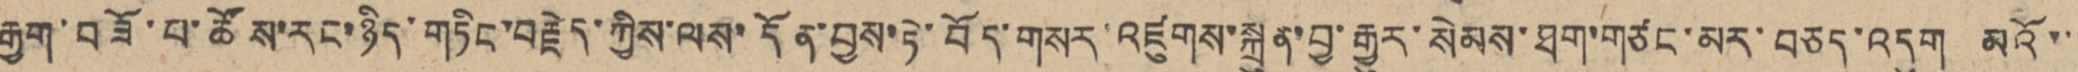རྒྱག་བཟོ་པ་ཚོས་རང་ཉིད་གཏིང་བརྗེད་ཀྱིས་ལས་དོན་བྱས་ཏེ་བོད་གསར་འཛུགས་སྐྲུན་བྱ་རྒྱུར་སེམས་ཐག་གཙང་མར་བཅད་འདུག མའོ་་་
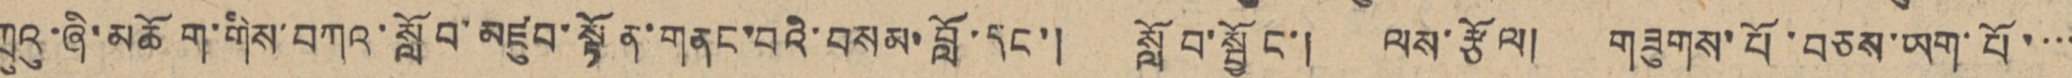ཀྲུའུ་ཞི་མཆོག་གིས་བཀའ་སློབ་མཛུབ་སྟོན་གནང་བའི་བསམ་བློ་དང་། སློབ་སྦྱོང་། ལས་རྩོལ། གཟུགས་པོ་བཅས་ཡག་པོ་་་་
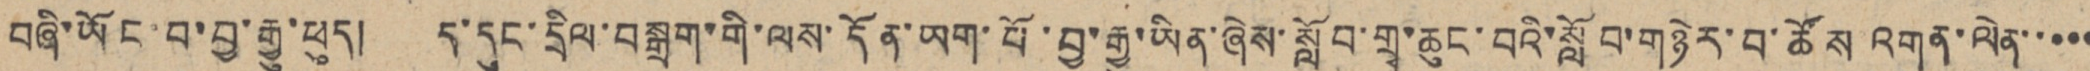བཞི་ཡོང་བ་བྱ་རྒྱུ་ཕུད། ད་དུང་དྲིལ་བསྒྲག་གི་ལས་དོན་ཡག་པོ་བྱ་རྒྱུ་ཡིན་ཞེས་སློབ་གྲྭ་ཆུང་བའི་སློབ་གཉེར་བ་ཚོས འགན་ལེན་་་་་
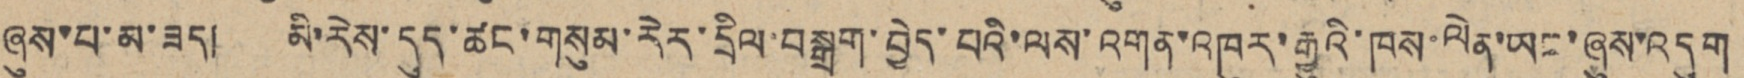ཞུས་པ་མ་ཟད། མི་རེས་དུད་ཚང་གསུམ་རེར་དྲིལ་བསྒྲག་བྱེད་པའི་ལས་འགན་འཁུར་རྒྱུའི་ཁས་ལེན་ཡང་ཞུས་འདུག
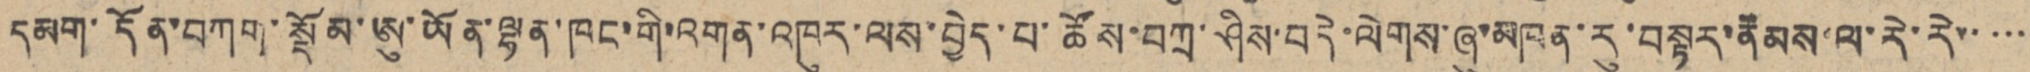དམག་དོན་བཀག་སྡོམ་ཨུ་ཡོན་ལྷན་ཁང་གི་འགན་འཁུར་ལས་བྱེད་པ་ཚོས་བཀྲ་ཤིས་བདེ་ལེགས་ཞུ་མཁན་རུ་བསྟར་རྣམས་ལ་རེ་རེ་་་་་
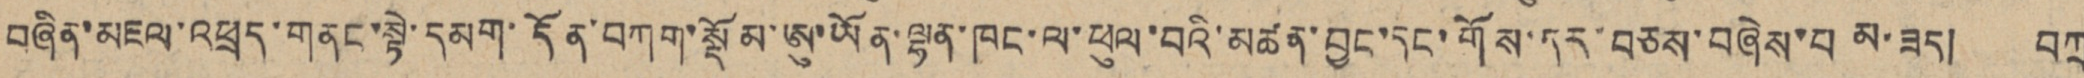བཞིན་མཇལ་འཕྲད་གནང་སྟེ་དམག་དོན་བཀག་སྡོམ་ཨུ་ཡོན་ལྷན་ཁང་ལ་ཕུལ་བའི་མཚན་བྱང་དང་གོས་དར་བཅས་བཞེས་པ མ་ཟད། བཀྲ
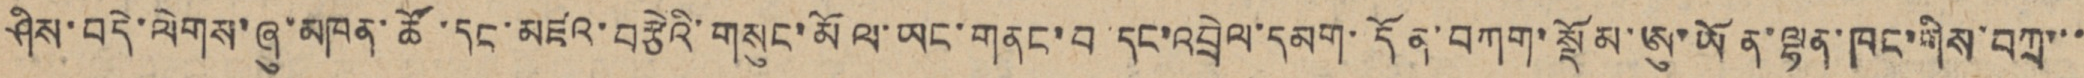ཤིས་བདེ་ལེགས་ཞུ་མཁན་ཚོ་དང་མཛའ་བརྩེའི་གསུང་མོལ་ཡང་གནང་བ་དང་འབྲེལ་དམག་དོན་བཀག་སྡོམ་ཨུ་ཡོན་ལྷན་ཁང་གིས་བཀྲ་་་
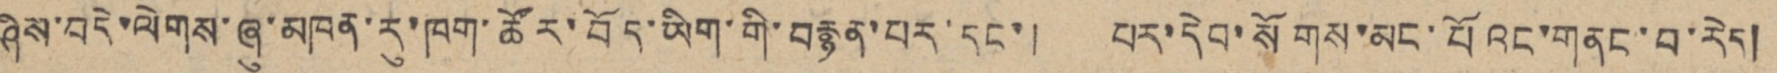ཤིས་བདེ་ལེགས་ཞུ་མཁན་རུ་ཁག་ཚོར་བོད་ཡིག་གི་བརྙན་པར་དང་། པར་དེབ་སོགས་མང་པོའང་གནང་བ་རེད།
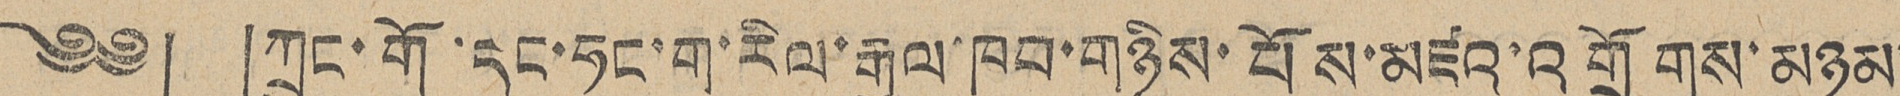༄༅། །ཀྲུང་གོ་དང་ཧང་ག་རིལ་རྒྱལ་ཁབ་གཉིས་པོས་མཛའ་འགྲོགས་མཉམ་
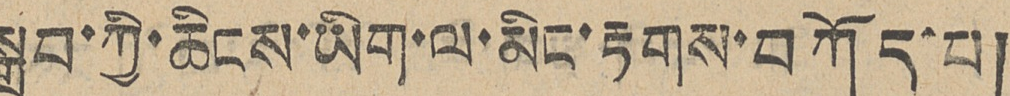སྒྲུབ་ཀྱི་ཆིངས་ཡིག་ལ་མིང་རྟགས་པ་བཀོད་པ།
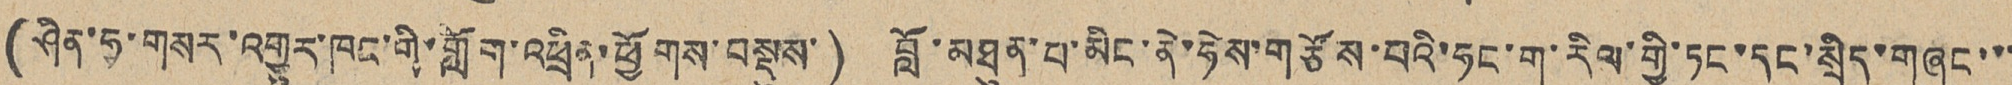(ཤིན་ཧྭ་གསར་འགྱུར་ཁང་གི་གློག་འཕྲིན་ཕྱོགས་བསྡུས་) བློ་མཐུན་པ་མིང་ནེ་ཧེས་གཙོས་པའི་ཧང་ག་རིལ་གྱི་ཏང་དང་སྲིད་གཞུང་་་
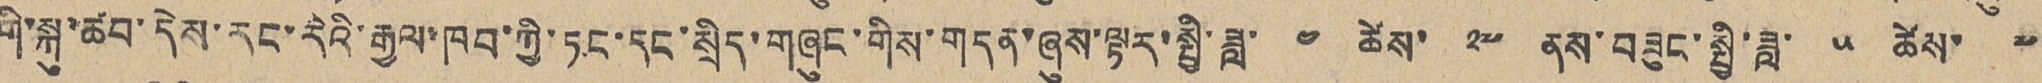གི་སྐུ་ཚབ་དེས་རང་རེའི་རྒྱལ་ཁབ་ཀྱི་ཏང་དང་སྲིད་གཞུང་གིས་གདན་ཞུས་ལྟར་སྤྱི་ཟླ་ ༤ ཚེས་ ༢༧ ནས་བཟུང་སྤྱི་ཟླ་ ༥ ཚེས་ ༧
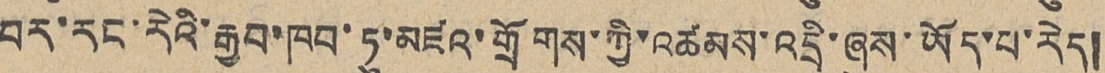པར་རང་རེའི་རྒྱབ་ཁབ་ཏུ་མཛའ་གྲོགས་ཀྱི་འཚམས་འདྲི་ཞུས་ཡོད་པ་རེད།
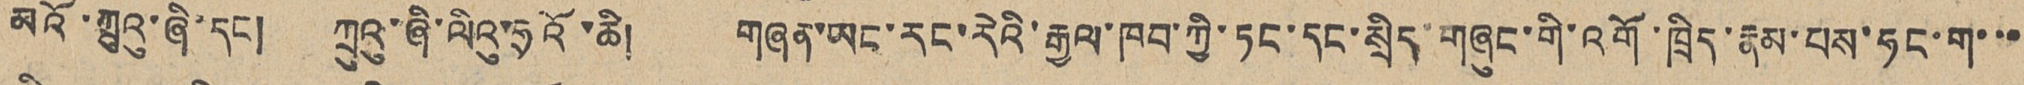མའོ་ཀྲུའུ་ཞི་དང། ཀྲུའུ་ཞི་ལིའུ་ཧྲའོ་ཆི། གཞན་ཡང་རང་རེའི་རྒྱལ་ཁབ་ཀྱི་ཏང་དང་སྲིད་གཞུང་གི་འགོ་ཁྲིད་རྣམ་པས་ཧང་ག་་་
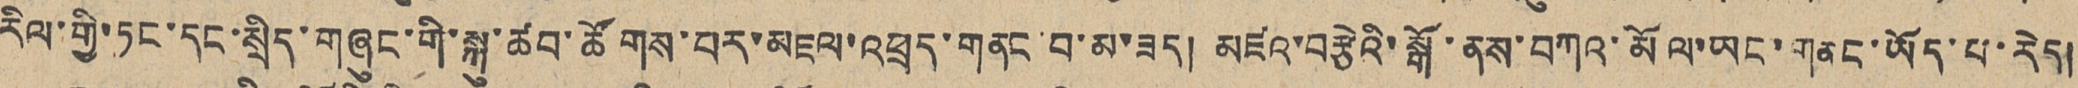རིལ་གྱི་ཏང་དང་སྲིད་གཞུང་གི་སྐུ་ཚབ་ཚོགས་པར་མཇལ་འཕྲད་གནང་བ་མ་ཟད། མཛའ་བརྩེའི་སྒོ་ནས་བཀའ་མོལ་ཡང་གནང་ཡོད་པ་རེད།
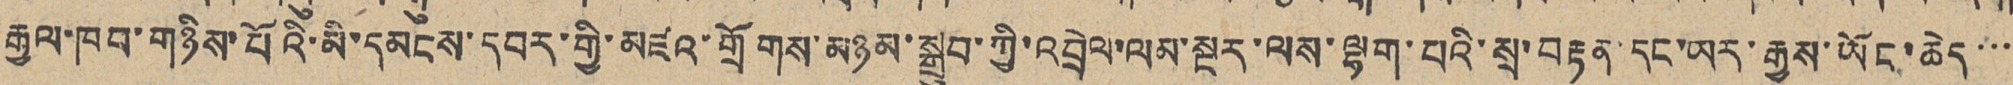རྒྱལ་ཁབ་གཉིས་པོའི་མི་དམངས་དབར་གྱི་མཛའ་གྲོགས་མཉམ་སྒྲུབ་ཀྱི་འབྲེལ་ལམ་སྔར་ལས་ལྷག་པའི་སྲ་བརྟན་དང་ཡར་རྒྱས་ཡོང་ཆེད་་་
